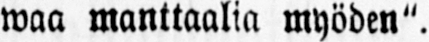maa manttaalia myöden".
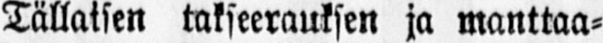Tällatsen takseerauksen ja manttaa-
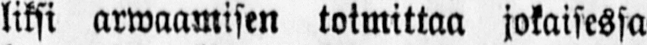liksi arwaamisen toimittaa jokaisessa
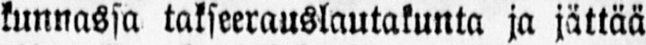kunnassa takseerauslautakunta ja jättää
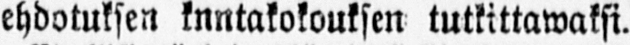ehdotuksen knntakokouksen tutkittawaksi.
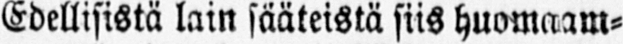Edellisistä lain sääteistä siis huomaam-
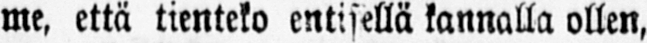me, että tienteko entisellä kannalla ollen,
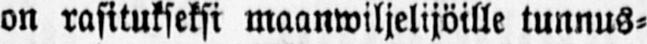on rasitukseksi maanwiljelijöille tunnus-
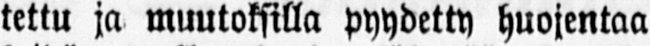tettu ja muutoksilla pyydetty huojentaa
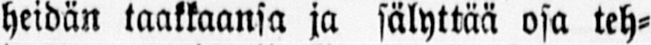heidän taakkaansa ja sälyttää osa teh-
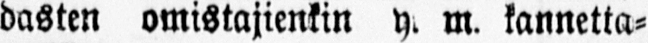dasten omistajienkin y. m. kannetta-
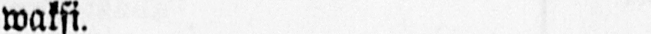waksi.
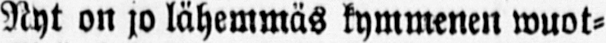Nyt on jo lähemmäs kymmenen wuot-
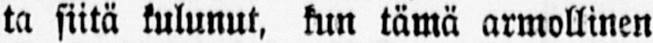ta siitä kulunut, kun tämä armollinen
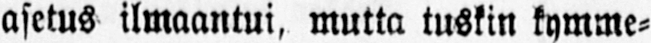asetus ilmaantui, mutta tuskin kymme-
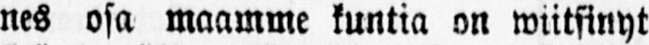nes osa maamme kuntia on wiitsinyt
